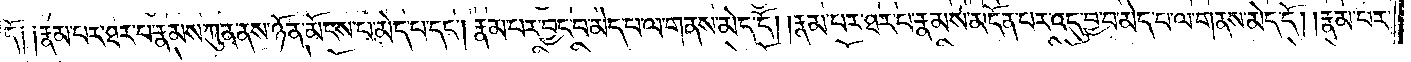དོ། །རྣམ་པར་ཐར་པ་རྣམས་ཀུན་ནས་ཉོན་མོངས་པ་མེད་པ་དང༌། རྣམ་པར་བྱང་བ་མེད་པ་ལ་གནས་མེད་དོ། །རྣམ་པར་ཐར་པ་རྣམས་མངོན་པར་འདུ་བྱ་བ་མེད་པ་ལ་གནས་མེད་དོ། །རྣམ་པར་
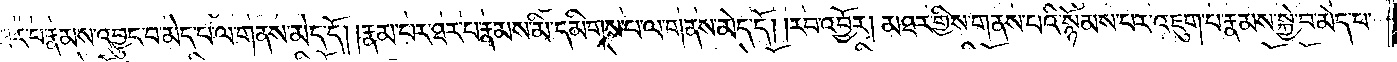ཐར་པ་རྣམས་འབྱུང་བ་མེད་པ་ལ་གནས་མེད་དོ། །རྣམ་པར་ཐར་པ་རྣམས་མི་དམིགས་པ་ལ་གནས་མེད་དོ། །རབ་འབྱོར། མཐར་གྱིས་གནས་པའི་སྙོམས་པར་འཇུག་པ་རྣམས་སྐྱེ་བ་མེད་པ་
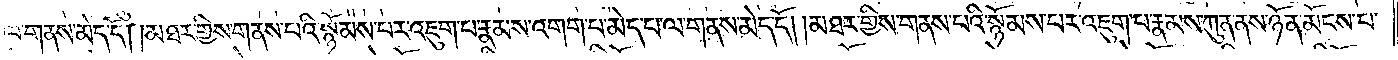ལ་གནས་མེད་དོ། །མཐར་གྱིས་གནས་པའི་སྙོམས་པར་འཇུག་པ་རྣམས་འགག་པ་མེད་པ་ལ་གནས་མེད་དོ། །མཐར་གྱིས་གནས་པའི་སྙོམས་པར་འཇུག་པ་རྣམས་ཀུན་ནས་ཉོན་མོངས་པ་
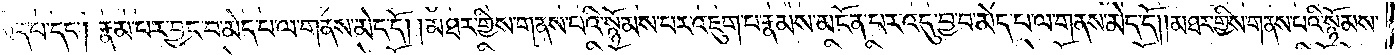མེད་པ་དང༌། རྣམ་པར་བྱང་བ་མེད་པ་ལ་གནས་མེད་དོ། །མཐར་གྱིས་གནས་པའི་སྙོམས་པར་འཇུག་པ་རྣམས་མངོན་པར་འདུ་བྱ་བ་མེད་པ་ལ་གནས་མེད་དོ། །མཐར་གྱིས་གནས་པའི་སྙོམས་
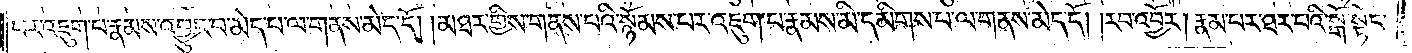པར་འཇུག་པ་རྣམས་འབྱུང་བ་མེད་པ་ལ་གནས་མེད་དོ། །མཐར་གྱིས་གནས་པའི་སྙོམས་པར་འཇུག་པ་རྣམས་མི་དམིགས་པ་ལ་གནས་མེད་དོ། །རབ་འབྱོར། རྣམ་པར་ཐར་པའི་སྒོ་སྟོང་
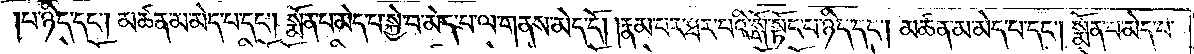པ་ཉིད་དང༌། མཚན་མ་མེད་པ་དང༌། སྨོན་པ་མེད་པ་སྐྱེ་བ་མེད་པ་ལ་གནས་མེད་དོ། །རྣམ་པར་ཐར་པའི་སྒོ་སྟོང་པ་ཉིད་དང༌། མཚན་མ་མེད་པ་དང༌། སྨོན་པ་མེད་པ་
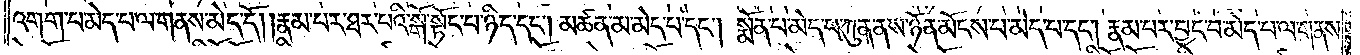འགག་པ་མེད་པ་ལ་གནས་མེད་དོ། །རྣམ་པར་ཐར་པའི་སྒོ་སྟོང་པ་ཉིད་དང༌། མཚན་མ་མེད་པ་དང༌། སྨོན་པ་མེད་པ་ཀུན་ནས་ཉོན་མོངས་པ་མེད་པ་དང༌། རྣམ་པར་བྱང་བ་མེད་པ་ལ་གནས་
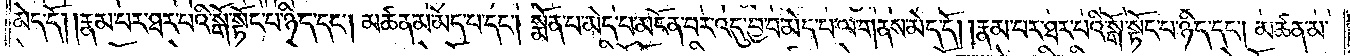མེད་དོ། །རྣམ་པར་ཐར་པའི་སྒོ་སྟོང་པ་ཉིད་དང༌། །མཚན་མ་མེད་པ་དང༌། སྨོན་པ་མེད་པ་མངོན་པར་འདུ་བྱ་བ་མེད་པ་ལ་གནས་མེད་དོ། །རྣམ་པར་ཐར་པའི་སྒོ་སྟོང་པ་ཉིད་དང༌། མཚན་མ་
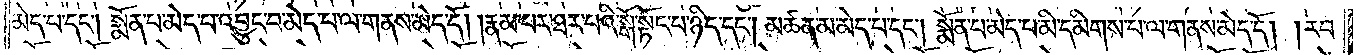མེད་པ་དང༌། སྨོན་པ་མེད་པ་འབྱུང་བ་མེད་པ་ལ་གནས་མེད་དོ། །རྣམ་པར་ཐར་པའི་སྒོ་སྟོང་པ་ཉིད་དང༌། མཚན་མ་མེད་པ་དང༌། སྨོན་པ་མེད་པ་མི་དམིགས་པ་ལ་གནས་མེད་དོ། །རབ་
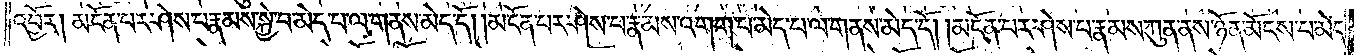འབྱོར། མངོན་པར་ཤེས་པ་རྣམས་སྐྱེ་བ་མེད་པ་ལ་གནས་མེད་དོ། །མངོན་པར་ཤེས་པ་རྣམས་འགག་པ་མེད་པ་ལ་གནས་མེད་དོ། །མངོན་པར་ཤེས་པ་རྣམས་ཀུན་ནས་ཉོན་མོངས་པ་མེད་
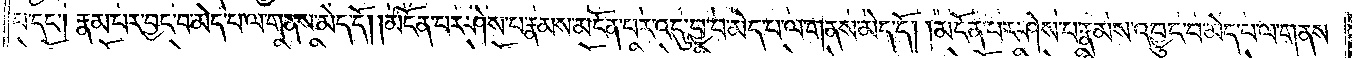པ་དང༌། རྣམ་པར་བྱང་བ་མེད་པ་ལ་གནས་མེད་དོ། །མངོན་པར་ཤེས་པ་རྣམས་མངོན་པར་འདུ་བྱ་བ་མེད་པ་ལ་གནས་མེད་དོ། །མངོན་པར་ཤེས་པ་རྣམས་འབྱུང་བ་མེད་པ་ལ་གནས་
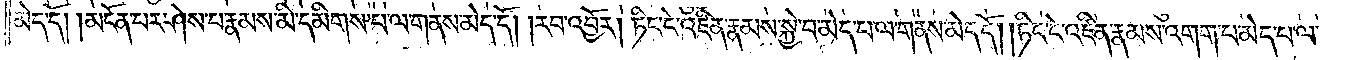མེད་དོ། །མངོན་པར་ཤེས་པ་རྣམས་མི་དམིགས་པ་ལ་གནས་མེད་དོ། །རབ་འབྱོར། ཏིང་ངེ་འཛིན་རྣམས་སྐྱེ་བ་མེད་པ་ལ་གནས་མེད་དོ། །ཏིང་ངེ་འཛིན་རྣམས་འགག་པ་མེད་པ་ལ་
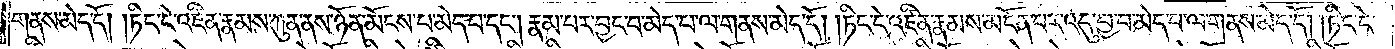གནས་མེད་དོ། །ཏིང་ངེ་འཛིན་རྣམས་ཀུན་ནས་ཉོན་མོངས་པ་མེད་པ་དང༌། རྣམ་པར་བྱང་བ་མེད་པ་ལ་གནས་མེད་དོ། །ཏིང་ངེ་འཛིན་རྣམས་མངོན་པར་འདུ་བྱ་བ་མེད་པ་ལ་གནས་མེད་དོ། །ཏིང་ངེ་
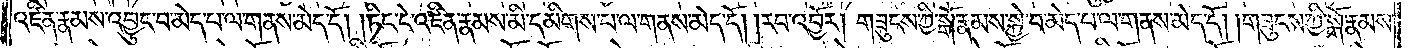འཛིན་རྣམས་འབྱུང་བ་མེད་པ་ལ་གནས་མེད་དོ། །ཏིང་ངེ་འཛིན་རྣམས་མི་དམིགས་པ་ལ་གནས་མེད་དོ། །རབ་འབྱོར། གཟུངས་ཀྱི་སྒོ་རྣམས་སྐྱེ་བ་མེད་པ་ལ་གནས་མེད་དོ། །གཟུངས་ཀྱི་སྒོ་རྣམས་
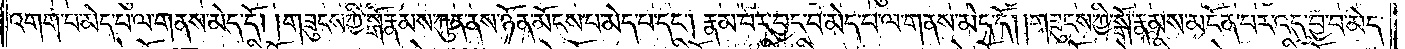འགག་པ་མེད་པ་ལ་གནས་མེད་དོ། །གཟུངས་ཀྱི་སྒོ་རྣམས་ཀུན་ནས་ཉོན་མོངས་པ་མེད་པ་དང༌། རྣམ་པར་བྱང་བ་མེད་པ་ལ་གནས་མེད་དོ། །གཟུངས་ཀྱི་སྒོ་རྣམས་མངོན་པར་འདུ་བྱ་བ་མེད་
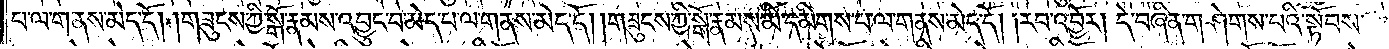པ་ལ་གནས་མེད་དོ། །གཟུངས་ཀྱི་སྒོ་རྣམས་འབྱུང་བ་མེད་པ་ལ་གནས་མེད་དོ། །གཟུངས་ཀྱི་སྒོ་རྣམས་མི་དམིགས་པ་ལ་གནས་མེད་དོ། །རབ་འབྱོར། དེ་བཞིན་གཤེགས་པའི་སྟོབས་
